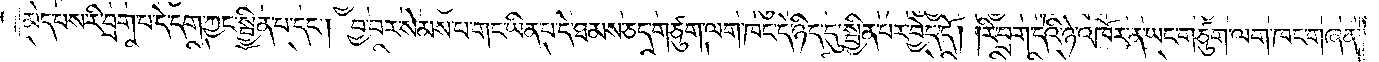མེད་པས་རི་བྲག་པ་དེ་དག་ཀྱང་སྦྱིན་པ་དང༌། བྱ་བར་སེམས་པ་གང་ཡིན་པ་དེ་ཐམས་ཅད་གཙུག་ལག་ཁང་དེ་ཉིད་དུ་སྦྱིན་པར་བྱེད་དོ། །རི་བྲག་དེའི་ཉེ་འཁོར་ན་ཡང་གཙུག་ལག་ཁང་གཞན་
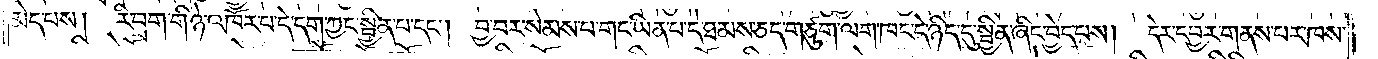མེད་པས། རི་བྲག་གི་ཉེ་འཁོར་པ་དེ་དག་ཀྱང་སྦྱིན་པ་དང༌། བྱ་བར་སེམས་པ་གང་ཡིན་པ་དེ་ཐམས་ཅད་གཙུག་ལག་ཁང་དེ་ཉིད་དུ་སྦྱིན་ཞིང་བྱེད་པས། དེར་དབྱར་གནས་པར་ཁས་
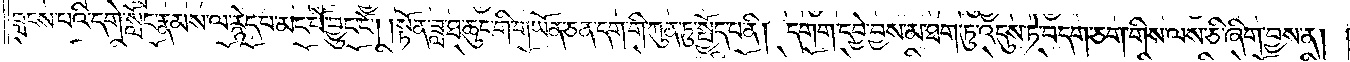བླངས་པའི་དགེ་སློང་རྣམས་ལ་རྙེད་པ་མང་པོ་བྱུང་ངོ༌། །སྟོན་ཟླ་ཐ་ཆུང་གི་གཡོན་ཅན་དག་གི་ཀུན་ཏུ་སྤྱོད་པ་ནི། དགག་དབྱེ་བྱས་མ་ཐག་ཏུ་འདུས་ཏེ་བདག་ཅག་གིས་ལས་ཅི་ཞིག་བྱས་ན།
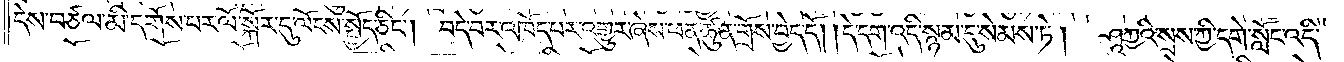དེས་བཙལ་མི་དགོས་པར་ལོ་སྐོར་དུ་ལོངས་སྤྱོད་ཅིང༌། བདེ་བར་འཁོད་པར་འགྱུར་ཞེས་ཕན་ཚུན་གྲོས་བྱེད་དོ། །དེ་དག་འདི་སྙམ་དུ་སེམས་ཏེ། ཤཱཀྱའི་སྲས་ཀྱི་དགེ་སློང་འདི་
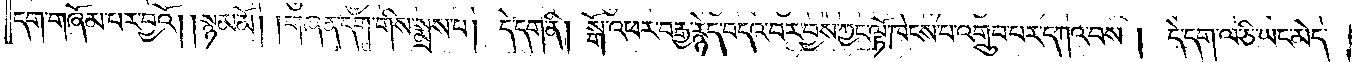དག་གཞོམ་པར་བྱའོ། །སྙམ་མོ། །གཞན་དག་གིས་སྨྲས་པ། དེ་དག་ནི། སྒོ་འཕར་བརྒྱ་རྙེད་བདའ་བར་བྱས་ཀྱང་ལྟོ་ཁེངས་པ་འགྲུབ་པར་དགའ་བས། དེ་དག་ལ་ཅི་ཡང་མེད་
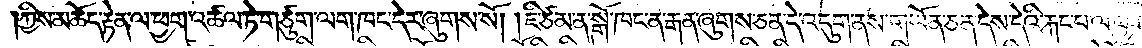ཀྱིས་མཆོད་རྟེན་ལ་ཕྱག་འཚལ་ཏེ་གཙུག་ལག་ཁང་དེར་ཞུགས་སོ། །ཇི་ཙམ་ན་སྒོ་ཁང་ན་རྒན་ཞུགས་ཅན་དེ་འདུག་ནས་གཡོན་ཅན་དེས་དེའི་རྐང་པ་ལ་ཕྱག་
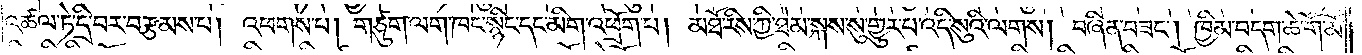འཚལ་ཏེ་དྲི་བར་བརྩམས་པ། འཕགས་པ། གཙུག་ལག་ཁང་སྙིང་དང་མིག་འཕྲོག་པ། མཐོ་རིས་ཀྱི་ཐེམ་སྐས་སུ་གྱུར་པ་འདི་སུའི་ལགས། བཞིན་བཟང༌། ཁྱིམ་བདག་ཆེ་གོ་མོ་
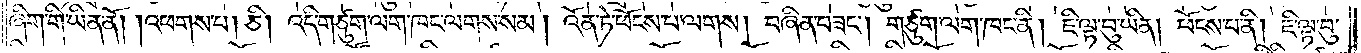ཞིག་གི་ཡིན་ནོ། །འཕགས་པ། ཅི། འདི་གཙུག་ལག་ཁང་ལགས་སམ། འོན་ཏེ་ཕོངས་པ་ལགས། བཞིན་བཟང༌། གཙུག་ལག་ཁང་ནི། ཇི་ལྟ་བུ་ཡིན། ཕོངས་པ་ནི། ཇི་ལྟ་བུ་
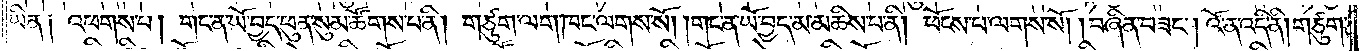ཡིན༑ འཕགས་པ། གང་ན་ཡོ་བྱད་ཕུན་སུམ་ཚོགས་པ་ནི། གཙུག་ལག་ཁང་ལགས་སོ། །གང་ན་ཡོ་བྱད་མ་མཆིས་པ་ནི། ཕོངས་པ་ལགས་སོ། །བཞིན་བཟང༌། འོ་ན་འདི་ནི། གཙུག་
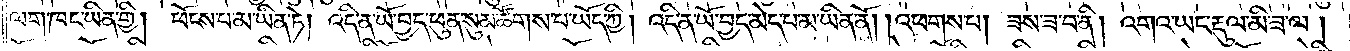ལག་ཁང་ཡིན་གྱི། ཕོངས་པ་མ་ཡིན་ཏེ། འདི་ན་ཡོ་བྱད་ཕུན་སུམ་ཚོགས་པ་ཡོད་ཀྱི། འདི་ན་ཡོ་བྱད་མེད་པ་མ་ཡིན་ནོ། །འཕགས་པ། ཟས་ཟ་བ་ནི། འགའ་ཡང་རྡུལ་མི་ཟ་ལ།
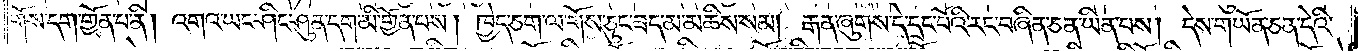གོས་དག་གྱོན་པ་ནི། འགའ་ཡང་ཤིང་ཤུན་དག་མི་གྱོན་པས། ཁྱེད་ཅག་ལ་གོས་ཅུང་ཟད་མ་མཆིས་སམ། རྒན་ཞུགས་དེ་དྲང་པོའི་རང་བཞིན་ཅན་ཡིན་པས། དེས་གཡོན་ཅན་དེའི་
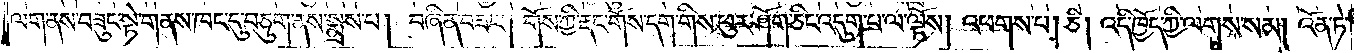ལག་ནས་བཟུང་སྟེ་གནས་ཁང་དུ་བཅུག་ནས་སྨྲས་པ། བཞིན་བཟང༌། གོས་ཀྱི་རྡང་གོས་དག་གིས་ཕུར་ཤོག་ཅིང་འདུག་པ་ལ་ལྟོས། འཕགས་པ། ཅི། འདི་ཁྱོད་ཀྱི་ལགས་སམ། འོན་ཏེ་
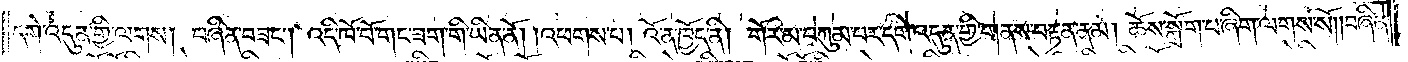དགེ་འདུན་གྱི་ལགས། བཞིན་བཟང༌། འདི་ཁོ་བོ་གང་ཟག་གི་ཡིན་ནོ། །འཕགས་པ། འོ་ན་ཁྱོད་ནི། གོར་མ་བཀུམ་པར་དགེ་འདུན་གྱི་གནས་བརྟན་ནམ། ཆོས་སྒྲོག་པ་ཞིག་ལགས་སོ༎བཞིན་
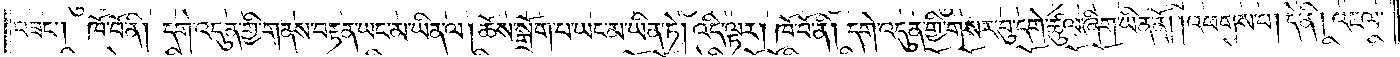བཟང༌། ཁོ་བོ་ནི། དགེ་འདུན་གྱི་གནས་བརྟན་ཡང་མ་ཡིན་ལ། ཆོས་སྒྲོག་པ་ཡང་མ་ཡིན་ཏེ། འདི་ལྟར། ཁོ་བོ་ནི། དགེ་འདུན་གྱི་གསར་བུ་དགེ་ཚུལ་ཞིག་ཡིན་ནོ། །འཕགས་པ། དེ་ནི། འཇལ་
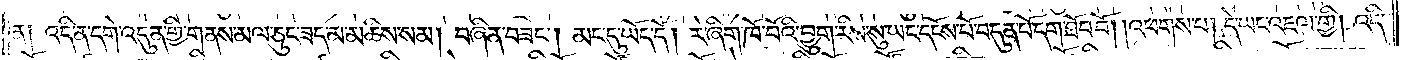ན༑ འདི་ན་དགེ་འདུན་གྱི་གནས་མལ་ཅུང་ཟད་མ་མཆིས་སམ། བཞིན་བཟང༌། མང་དུ་ཡོད་དོ། །རེ་ཞིག་ཁོ་བོའི་བྱུག་རིས་སུ་ཡང་དངོས་པོ་བདུན་པོ་དག་ཐོབ་བོ། །འཕགས་པ། དེ་ཡང་འཇལ་གྱི། འདི་
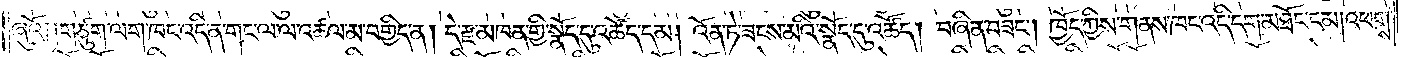ཞུའོ། །གཙུག་ལག་ཁང་འདི་ན་གང་ལ་ལ་འཚལ་མ་བགྱིད་ན། དེ་རྫ་མཁན་གྱི་སྣོད་དུ་འཚོད་དམ། འོན་ཏེ་ཟངས་མིའི་སྣོད་དུ་འཚོད། བཞིན་བཟང༌། ཁྱོད་ཀྱིས་གནས་ཁང་འདི་དག་མཐོང་ངམ། འཕགས་
